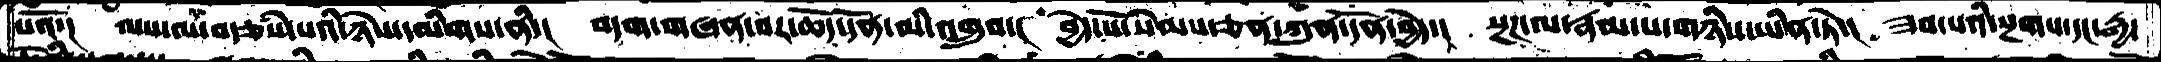པའོ་།  ལས་ལ་བརྩིས་པའི་ཉེས་དམིགས་ནི་།  བདག་གཞན་བར་ཆོད་དོན་མི་འགྲུབ་། བྱེད་པོ་སེམས་ཅན་ཀུན་དོན་བྱེད་།  སྔཌ་ལ་རྣམ་པ་གཉིས་ཡིན་ཏེ་།  ཟབ་པའི་སྔགས་དང་རྒྱ་
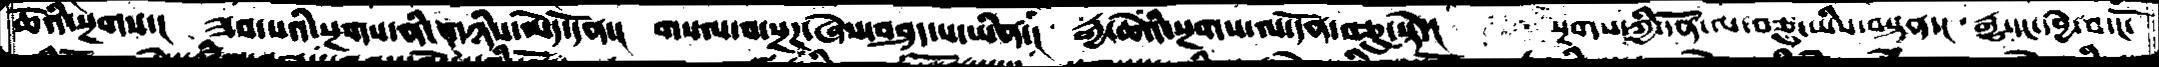ཆེའི་སྔགས་།  ཟབ་པའི་སྔགས་ནི་གཉིས་མེད་དོན་།  གསལ་བ་སྔཌ་ཞེས་བཤད་པ་ཡིན་།  རྒྱ་ཆེའི་སྔགས་ལ་དོན་བཅུ་སྟེ་།  སྔགས་ཀྱི་དོན་ལ་བཅུ་ཡིས་བསྟན་། རྒྱུ་དང་དབྱེ་བ་ངོ་
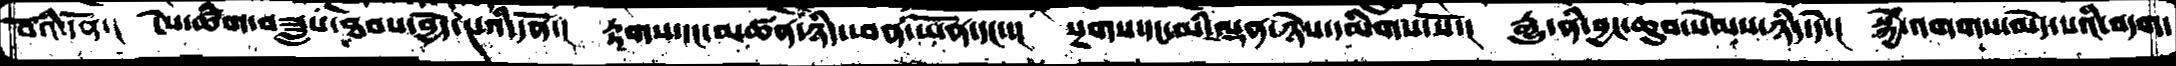བོའི་དོན་།  ངེས་ཚིག་བཟླས་ཐབས་བྱེད་པའི་དོན་།  རྟགས་དང་མཚན་ཉིད་ཕན་ཡོན་དང་་།  སྔགས་དང་མི་ལྡན་ཉེས་དམིགས་སོ་།  རྒྱུ་ནི་བྱང་ཆུབ་སེམས་ཉིད་དོ་།  སྐྱེ་འགག་མེད་པའི་བདག་
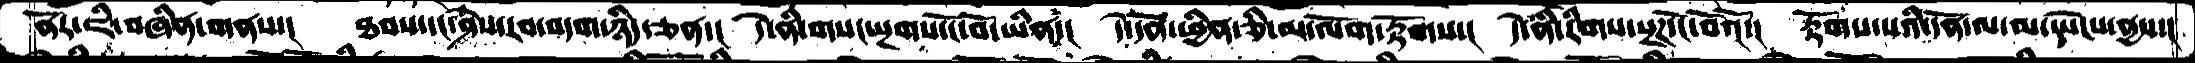ནོར་ཇི་བཞིན་གནས་།  ཐབས་དང་ཤེས་རབ་བདག་ཉིད་ཅན་།  དེ་ནི་གསང་སྔགས་ངོ་བོ་ཡིན་།  དེ་དོན་ཕྱིན་ཅི་མ་ལོག་རྟོགས་།  དེ་ནི་རིགས་སྔཌ་ངོ་བོའོ་།  རྟོགས་པའི་དོན་ལ་མ་ཡེངས་ནྱས་།
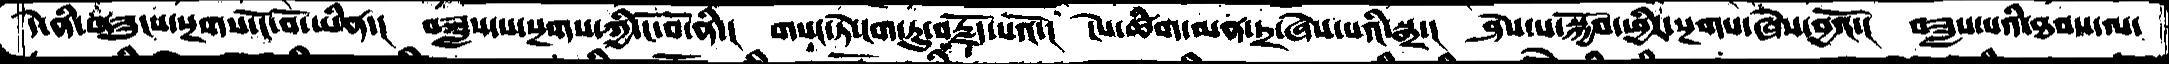དེ་ནི་གཟུངས་སྔགས་ངོ་བོ་ཡིན་།  བཟླས་པ་སྔགས་ཀྱི་ངོ་བོ་ནི་།  གསང་ཏེ་ངག་ཏུ་བརྗོད་པའོ་།  ངེས་ཚིག་མན་ཏྲ་ཞེས་པའི་སྒྲ་།  ཤེས་པ་སྐྱོབ་ཕྱིར་སྔགས་ཞེས་བྱའོ་།  བཟླས་པའི་ཐབས་ལ་
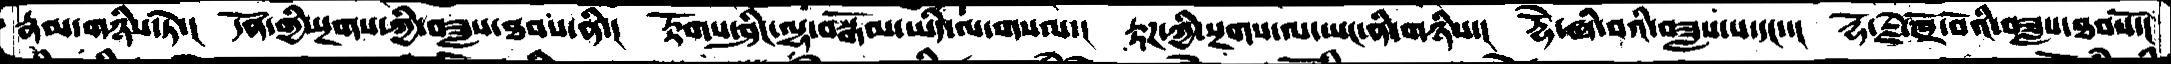རྣམ་གཉིས་ཏེ་།  དོན་གྱི་སྔགས་ཀྱི་བཟླས་ཐབས་ནི་།  རྟོགས་ཤིང་ལྷ་བསྒོམ་ཡིད་ལ་གསལ་།  རྟཌ་ཀྱི་སྔགས་ལ་ཡང་ནི་གཉིས་།  རྡོེ་ཞི་བའི་བཟླས་པ་དང་་།  རྡོ་རྗེ་ཁྲོ་བོའི་བཟླས་ཐབསོ་།
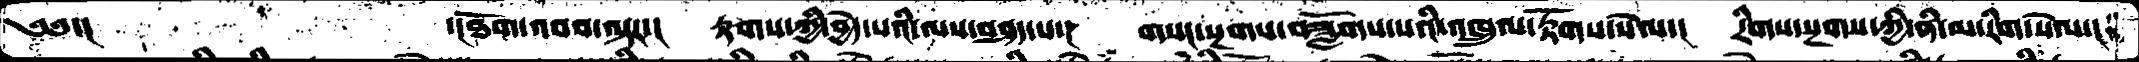༄༅་།       ་།་ཐོག་འབབ་ལྟར་།  རྟགས་ཀྱི་བྱེད་པའི་ལས་བཤད་པ་།  གསང་སྔགས་བཟློགས་པའི་འཁྲུལ་རྟོགས་སེལ་།  རིགས་སྔགས་ཀྱི་ནི་མ་རིག་སེལ་།
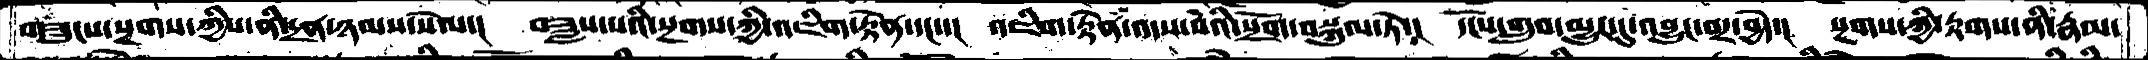གཟུངས་སྔགས་ཀྱིས་ནི་དྲན་ཉམས་སེལ་།  བཟླས་པའི་སྔགས་ཀྱི་འཇིག་རྟེན་དང་་།  འཇིག་རྟེན་འདས་པའི་སྲོག་བསྐུལ་ཏེ་།   དངོས་གྲུབ་མྱུར་དུ་འབྱུང་བར་བྱེད་།  སྔགས་ཀྱི་རྟགས་ནི་རྣམ་
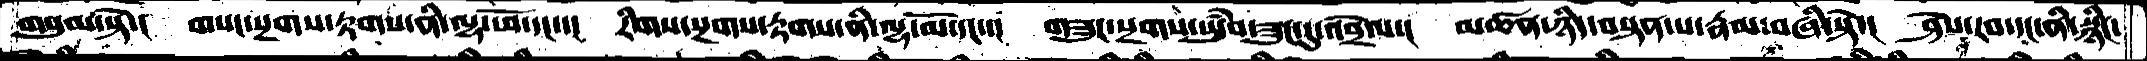གསུམ་སྟེ་།   གསང་སྔགས་རྟགས་ནི་ལྷ་ཕོ་དང་་།   རིགས་སྔགས་རྟགས་ནི་ལྷ་མོ་དང་་།  གཟུང་སྔགས་ཡུཾབ་ཟུང་དུ་འབྲེལ་།   མཚན་ཉིད་བསྟན་པ་རྣམ་བཞི་སྟེ་།  ཤེས་རབ་དང་ནི་སྙིང་
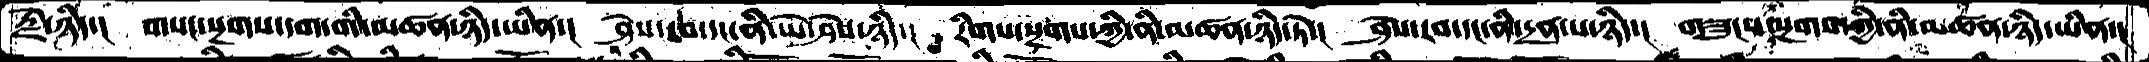རྗེ་ཉིད་།  གསང་སྔགས་དག་གི་མཚན་ཉིད་ཡིན་།  ཤེས་རབ་དང་ནི་ཡེ་ཤེས་ཉིད་།  རིགས་སྔགས་ཀྱི་ནི་མཚན་ཉིད་ཏེ་།  ཤེས་རབ་དང་ནི་དྲན་པ་ཉིད་།  གཟུངས་སྔགས་གྱི་ནི་མཚན་ཉིད་ཡིན་།
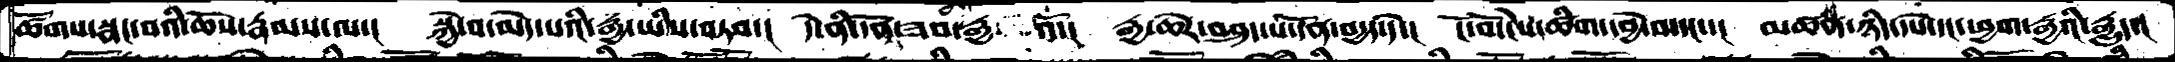ཚོགས་སྣང་བའི་ཆོས་རྣམས་ལ་།  སྐྱེ་བ་མེད་པའི་རྒྱ་ཡིས་བཏབ་།  དེ་ནི་དོན་ཟབ་རྒྱའོ་།  རྒྱ་ཆེར་བཤད་པ་དོན་བདྱད་དེ་།  ངོ་བོ་ངེས་ཚིག་དབྱེ་བ་དང་་།  མཚན་ཉིད་དཔེ་དང་ཕྱག་རྒྱའི་རྒྱུད་།
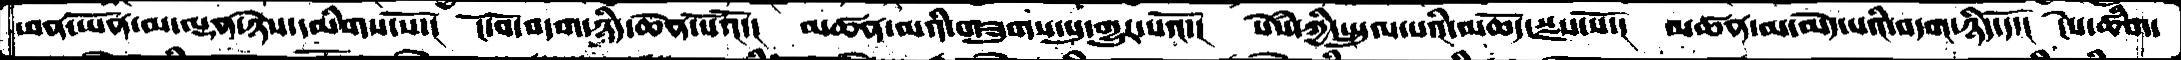ཕན་ཡོན་མ་ལྡན་ཉེས་དམིགས་སོ་།  ངོ་བོ་བདག་ཉིད་ཆེན་པོའོ།  མཚན་མའི་གཟུགས་སུ་གྱུར་པའོ་།  སེཾས་ཀྱི་སྤྲུལ་པའི་མཆོད་སྫས་སོ་།  མཚན་མ་མེད་པའི་བདག་ཉིད་དོ་།  ངེས་ཚིག་
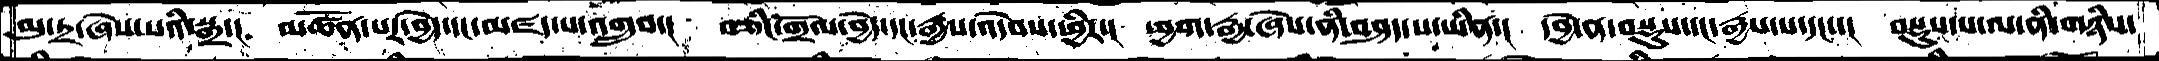མུ་ཏྲ་ཞེས་པའི་སྒྲ་།   མཚོན་པར་བྱེད་དང་མཛད་པ་འགྲུབ་།  བཅིང་གྲོལ་བྱེད་དང་རྒྱས་འདེབས་ཕྱིར་།  ཕྱག་རྒྱ་ཞེས་ནི་བཤད་པ་ཡིན་།  དབྱེ་ན་བསྡུས་དང་རྒྱས་པ་དང་་།  བསྡུས་པ་ལ་ནི་གཉིས་
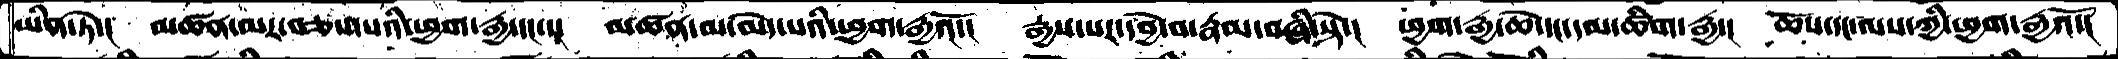ཡིན་ཏེ་།   མཚན་མར་བཅས་པའི་ཕྱག་རྒྱ་དང་་།  མཚན་མ་མེད་པའི་ཕྱག་རྒྱའོ་།  རྒྱས་པར་དབྱེ་བ་རྣམ་བཞི་སྟེ་།  ཕྱག་རྒྱ་ཆེ་དང་དམ་ཚིག་རྒྱ་།  ཆོས་དང་ལས་ཀྱི་ཕྱག་རྒྱའོ་།
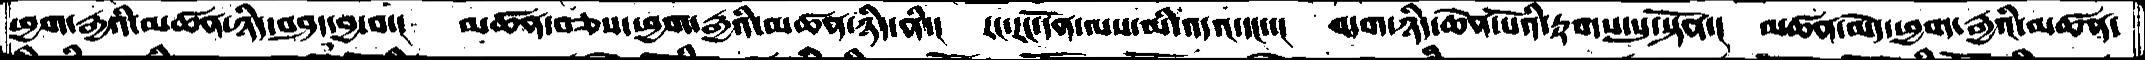ཕྱག་རྒྱའི་མཚན་ཉིད་བཤད་བྱ་བ་།  མཚན་བཅས་ཕྱག་རྒྱའི་མཚན་ཉིན་ནི་།  རང་རང་དོན་ལས་མི་འདའ་དང་་།  བདག་ཉིད་ཆེན་པོའི་རྟགས་སུ་སྟོན་།  མཚན་མེད་ཕྱག་རྒྱའི་མཚན་
